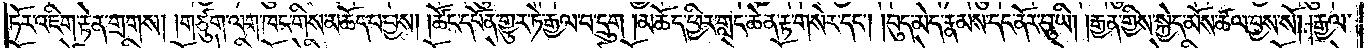ཏོར་འཇིག་རྟེན་གྲགས། །གཙུག་ལག་ཁང་གིས་མཆོད་པ་བྱས། །ཚོང་དཔོན་གྱུར་ཏེ་རྒྱལ་བ་དྲུག །མཆོད་ཕྱིར་གླང་ཆེན་རྟ་གསེར་དང༌། །བུད་མེད་རྣམས་དང་ནོར་བུ་ཡི། །རྒྱན་གྱིས་སྐྱེད་མོས་ཚལ་བྱས་སོ། །རྒྱལ་
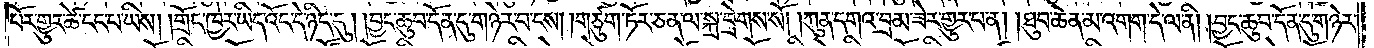པོར་གྱུར་ཚེ་ངང་པ་ཡིས། །གྲོང་ཁྱེར་ཡིད་འོང་དེ་ཉིད་དུ། །བྱང་ཆུབ་དོན་དུ་གཉེར་བ་ངས། །གཙུག་ཏོར་ཅན་ལ་སྐྲ་བྲེགས་སོ། །ཀུན་དགའ་བྲམ་ཟེར་གྱུར་པ་ན། །ཐུབ་ཆེན་མ་འགག་དེ་ལ་ནི། །བྱང་ཆུབ་དོན་དུ་གཉེར་
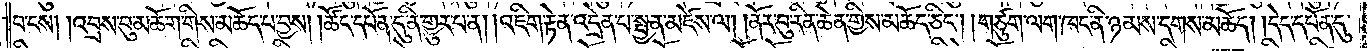བ་ངས། །འབྲས་བུ་མཆོག་གིས་མཆོད་པ་བྱས། །ཚོང་དཔོན་དུ་ནི་གྱུར་པ་ན། །འཇིག་རྟེན་འདྲེན་པ་སྤྱན་མཛེས་ལ། །ནོར་བུ་རིན་ཆེན་གྱིས་མཆོད་ཅིང༌། །གཙུག་ལག་ཁང་ན་ཉམས་དགས་མཆོད། །དེད་དཔོན་དུ་
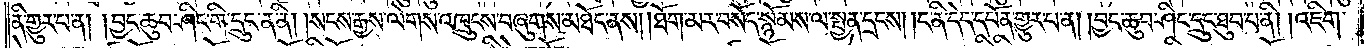ནི་གྱུར་པ་ན། །བྱང་ཆུབ་ཤིང་གི་དྲུང་ན་ནི། །སངས་རྒྱས་ལེགས་འཁྲུགས་བཞུགས་མཐོང་ནས། །ཐོག་མར་བསོད་སྙོམས་ལ་སྤྱན་དྲངས། །ང་ནི་དེད་དཔོན་གྱུར་པ་ན། བྱང་ཆུབ་ཤིང་དྲུང་ཐུབ་པ་ནི། །འཇིག་
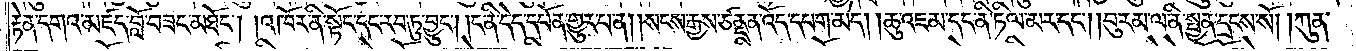རྟེན་དགའ་མཛད་བློ་བཟང་མཐོང༌། །འཁོར་ནི་སྟོང་དང་རབ་ཏུ་བྱུང༌། །ང་ནི་དེད་དཔོན་གྱུར་པ་ན། །སངས་རྒྱས་ཙནྡན་འོད་དཔག་མེད། །ཆུ་འཇམ་དང་ནི་ཏིལ་མར་དང༌། བུ་རམ་ལ་ནི་སྤྱན་དྲངས་སོ། །ཀུན་
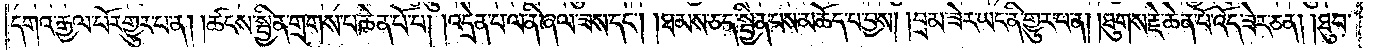དགའ་རྒྱལ་པོར་གྱུར་པ་ན། །ཚངས་སྦྱིན་གྲགས་པ་ཆེན་པོ་པ། །འདྲེན་པ་ལ་ནི་ཞལ་ཟས་དང༌། །ཐམས་ཅད་སྦྱིན་པས་མཆོད་པ་བྱས། །བྲམ་ཟེར་ཡང་ནི་གྱུར་པ་ན། །ཐུགས་རྗེ་ཆེན་པོ་འོད་ཟེར་ཅན། །ཐུབ་
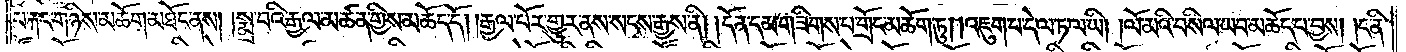པ་རྐང་གཉིས་མཆོག་མཐོང་ནས། །སྨྲ་བའི་རྒྱལ་མཚན་གྱིས་མཆོད་དོ། །རྒྱལ་པོར་གྱུར་ནས་སངས་རྒྱས་ནི། །དོན་དམ་གཟིགས་པ་གྲོང་མཆོག་ཏུ། །འཇུག་པ་དེ་ལ་ཏ་ལ་ཡི། །ལོ་མའི་བསིལ་ཡབ་མཆོད་པ་བྱས། །ང་ནི་
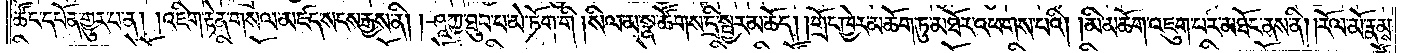ཚོང་དཔོན་གྱུར་པ་ན། །འཇིག་རྟེན་གསལ་མཛད་སངས་རྒྱས་ནི། །ཤཱཀྱ་ཐུབ་པ་མེ་ཏོག་གི །སིལ་མ་སྣ་ཚོགས་དྲི་སྦྱར་མཆོད། །གྲོང་ཁྱེར་མཆོག་ཏུ་མཐོར་འཕགས་པའི། །མི་མཆོག་འཇུག་པར་མཐོང་ནས་ནི། །རོལ་མོ་རྣམས་
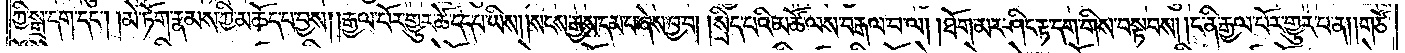ཀྱི་སྒྲ་དག་དང༌། །མེ་ཏོག་རྣམས་ཀྱི་མཆོད་པ་བྱས། །རྒྱལ་པོར་གྱུར་ཚེ་དད་པ་ཡིས། །སངས་རྒྱས་དམ་པ་ཞེས་བྱ་བ། །སྲིད་པའི་མཚོ་ལས་བརྒལ་བ་ལ། །ཐོག་མར་ཤིང་རྟ་དག་གིས་བསྟབས། །ང་ནི་རྒྱལ་པོར་གྱུར་པ་ན། །གཙོ་
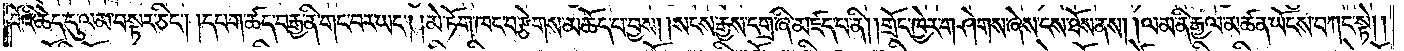བོའི་ཆེད་དུ་ལམ་བསྟར་ཅིང༌། །དཔག་ཚད་བརྒྱ་ནི་གང་བར་ཡང༌། །མེ་ཏོག་ཁང་བརྩེགས་མཆོད་པ་བྱས། །སངས་རྒྱས་དགྲ་ཞི་མཛད་པ་ནི། །གྲོང་ཁྱེར་གཤེགས་ཞེས་ངས་ཐོས་ནས། །ལམ་ནི་རྒྱལ་མཚན་ཡོངས་བཀང་སྟེ། །
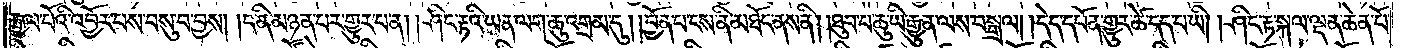རྒྱལ་པོའི་འབྱོར་བས་བསུ་བ་བྱས། །ང་ནི་མཉན་པར་གྱུར་པ་ན། །ཤིང་རྟའི་ཡན་ལག་ཆུ་འགྲམ་དུ། །བྱོན་པ་ངས་ནི་མཐོང་ནས་ནི། །ཐུབ་པ་ཆུ་ཡི་རྒྱུན་ལས་བསྒྲལ། །དེད་དཔོན་གྱུར་ཚེ་དད་པ་ཡི། །ཤིང་རྟ་སྐལ་ལྡན་ཆེན་པོ་
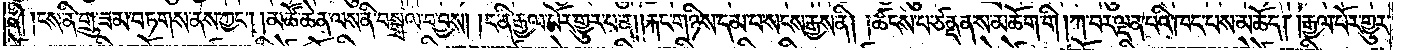ནི། །ངས་ནི་གྲུ་ཟམ་བཏགས་ནས་ཀྱང༌། །མཚོ་ཆེན་ལས་ནི་བསྒྲལ་བ་བྱས། །ང་ནི་རྒྱལ་པོར་གྱུར་པ་ན། །རྐང་གཉིས་དམ་པ་སངས་རྒྱས་ནི། །ཚངས་པ་ཙནྡན་ས་མཆོག་གི། །ཀ་བར་ལྡན་པའི་ཁང་པས་མཆོད། །རྒྱལ་པོར་གྱུར་
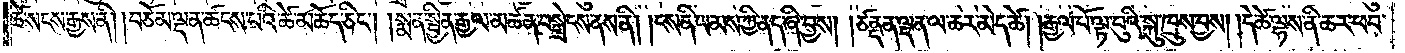ཚེ་སངས་རྒྱས་ནི། །བཅོམ་ལྡན་ཚངས་པའི་ཚེ་མཆོད་ཅིང༌། །སྨན་སྦྱིན་རྒྱལ་མཚན་བསྒྲེངས་ནས་ནི། །ངས་ནི་ཡམས་ཀྱི་ནད་ཞི་བྱས། །ཙནྡན་ལྡན་ལ་ཆར་མེད་ཚེ། །རྒྱལ་པོ་ལྟ་བུའི་སྐུ་ཁྲུས་བྱས། །དེ་ཚེ་ལྷས་ནི་ཆར་ཕབ་
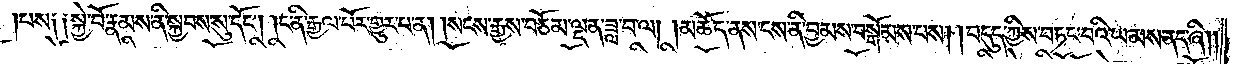པས༑ ༑སྐྱེ་བོ་རྣམས་ནི་སྐྱབས་སུ་དོང༌། །ང་ནི་རྒྱལ་པོར་གྱུར་པ་ན། །སངས་རྒྱས་བཅོམ་ལྡན་ཟླ་བ་ལ། །མཆོད་ནས་ངས་ནི་བྱམས་བསྒོམས་པས། །བདུད་ཀྱིས་བཏང་བའི་ཡམས་ནད་ཞི། །
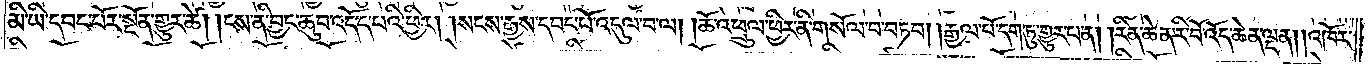མི་ཡི་དབང་པོར་སྔོན་གྱུར་ཚེ། །ངས་ནི་བྱང་ཆུབ་འདོད་པའི་ཕྱིར། །སངས་རྒྱས་དབང་པོ་འདུལ་བ་ལ། །ཆོ་འཕྲུལ་ཕྱིར་ནི་གསོལ་བ་བཏབ། །རྒྱལ་པོ་དག་ཏུ་གྱུར་པ་ན། །རིན་ཆེན་རི་བོ་འོད་ཆེན་ལྡན། །འཁོར་
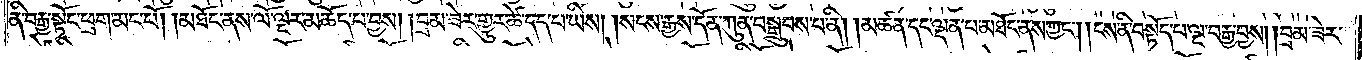ནི་བརྒྱ་སྟོང་ཕྲག་མང་པོ། །མཐོང་ནས་ལོ་ལྔར་མཆོད་པ་བྱས། །བྲམ་ཟེར་གྱུར་ཚེ་དད་པ་ཡིས། །སངས་རྒྱས་དོན་ཀུན་བསྒྲུབས་པ་ནི། །མཚན་དང་ལྡན་པ་མཐོང་ནས་ཀྱང༌། །ངས་ནི་བསྟོད་པ་ལྔ་བརྒྱ་བྱས། །བྲམ་ཟེར་
